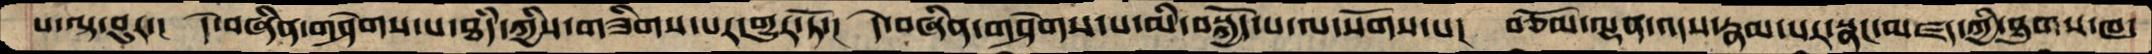པ་ལྟ་བུར་།  དེ་བཞིན་གཤེགས་པ་ཐཾད་ཀྱིས་གཟིགས་པར་གྱུར་ཏོ་།   དེ་བཞིན་གཤེགས་པ་མི་བསྐྱོད་པ་ལ་སོགས་པ་།  བཅོམ་ལྡན་འདས་རྣམ་པར་སྣང་མཛད་ཀྱི་ཐུགས་ཁ་
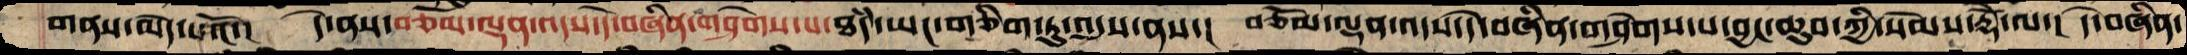གནས་མེད་པའོ་།   དེ་ནས་བཅོམ་ལྡན་འདས་དེ་བཞིན་གཤེགས་པ་ཐཾད་ཡང་གཅིག་ཏུ་འདུས་ནས་།  བཅོམ་ལྡན་འདས་དེ་བཞིན་གཤེགས་པ་བྱང་ཆུབ་ཀྱི་སེམས་རྡོེ་ལ་།  དེ་བཞིན་
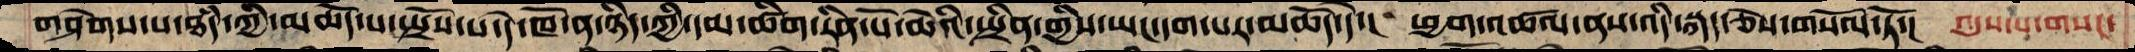གཤེགས་པ་ཐཾད་ཀྱི་མཆོད་པ་སྤྲོས་པ་དེ་ཁོ་ན་ཉིད་ཀྱི་དམ་ཚིག་རིན་པོ་ཆེའི་སྤྲིན་གྱིས་ཡང་དག་པར་མཆོད་དེ་།   ཕྱག་འཚལ་ནས་འདི་སྐད་ཅེས་གསོལ་ཏོ་།  འདུས་པ་གསང་
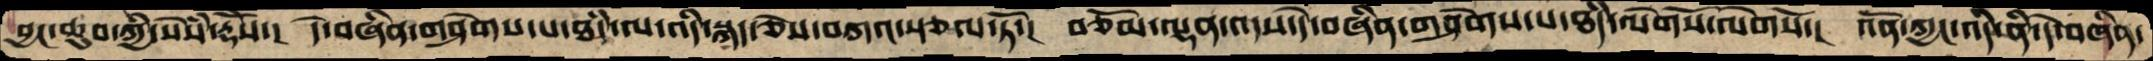བྱང་ཆུབ་ཀྱི་སེཾས་རྡོེས་།  དེ་བཞིན་གཤེགས་པ་ཐཾད་ལ་འདི་སྐད་ཅེས་བཀའ་སྩལ་ཏོ་།  བཅོམ་ལྡན་འདས་དེ་བཞིན་གཤེགས་པ་ཐཾད་ལེགསོ་ལེགསོ་།  འོན་ཀྱང་འདི་ནི་དེ་བཞིན་
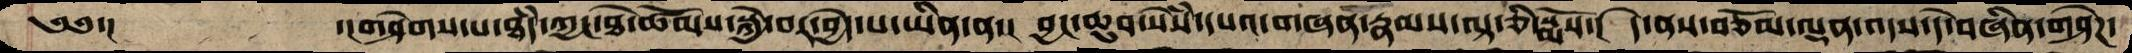༄༅་།   ་།གཤེགས་པ་ཐཾད་ཀྱང་ཐེ་ཚོམས་སྐྱེ་བར་བྱེད་པ་ཡིན་ན་།  བྱང་ཆུབ་སེཾས་དཔའ་གཞན་རྣམས་ལྟ་ཅི་སྨོས་།  དེ་ནས་བཅོམ་ལྡན་འདས་དེ་བཞིན་གཤེཌ་
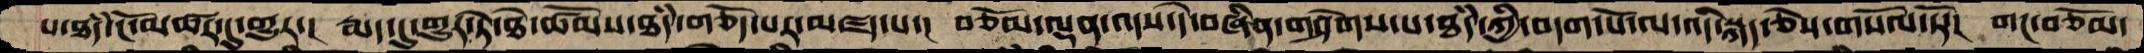པ་ཐཾད་ངོ་མཚར་དུ་གྱུར་།  རྨད་དུ་གྱུར་ཏེ་ཐེ་ཚོམས་ཐཾད་གཅོད་པར་མཛད་པ་།  བཅོམ་ལྡན་འདས་དེ་བཞིན་གཤེགས་པ་ཐཾད་ཀྱི་བདག་པོ་ལ་འདི་སྐད་ཅེས་གསོལ་ཏོ་།   གང་བཅོམ་
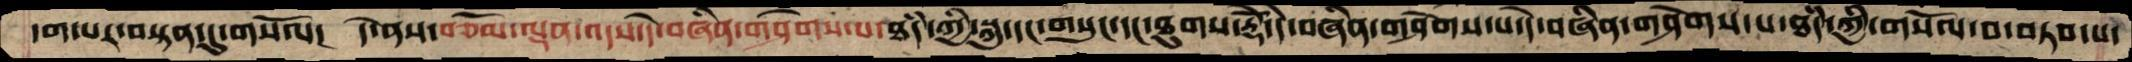དག་པར་བསྟན་དུ་གསོལ་།  དེ་ནས་བཅོམ་ལྡན་འདས་དེ་བཞིན་གཤེགས་པ་ཐཾད་ཀྱི་སྐུ་དང་གསུང་དང་ཐུགས་རྡོེ་དེ་བཞིན་གཤེགས་པ་དེ་བཞིན་གཤེགས་པ་ཐཾད་ཀྱི་གསོལ་བ་བཏབ་པ་
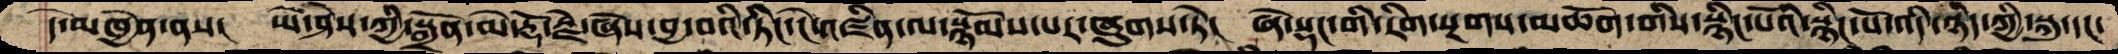དེ་མཁྱེན་ནས།  ཡེ་ཤེས་ཀྱི་སྒྲོན་མེ་རྡོ་རྗེ་ཞེས་བྱ་བའི་ཏིང་ངེ་འཛིན་ལ་སྙོམས་པར་ཞུགས་ཏེ་།  ཞེ་སྡང་གི་ཪིག་སྔགས་མཆོག་གིས་སྙིང་པོའི་སྙིང་པོ་འདི་ཉིད་ཀྱི་སྐུ་དང་
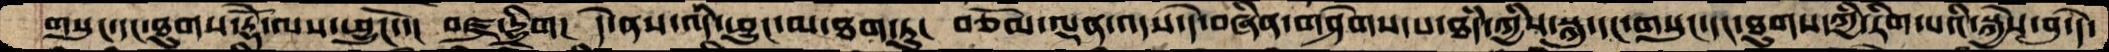གསུང་དང་ཐུགས་རྡོེ་ལས་ཕྱུངོ་་།  བཛྲ་དྷྲིག།  དེ་ནས་འདི་ཕྱུང་མ་ཐག་ཏུ་།  བཅོམ་ལྡན་འདས་དེ་བཞིན་གཤེགས་པ་ཐཾད་ཀྱིས་སྐུ་དང་གསུང་དང་ཐུགས་ཀྱི་རིག་པའི་སྐྱེས་བུ་དེ་
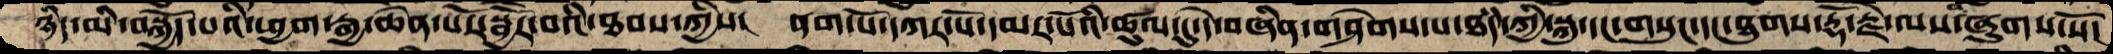ཉིད་མི་བསྐྱོད་པའི་ཕྱག་རྒྱ་ཆེན་པོར་སྦྱོར་བའི་ཐབས་ཀྱིས།  ནག་པོ་དཀར་པོ་དམར་པོའི་ཚུལ་དུ་དེ་བཞིན་གཤེགས་པ་ཐཾད་ཀྱི་སྐུ་དང་གསུང་དང་ཐུགས་རྡོ་རྗེ་ལས་ཞུགས་སོ་
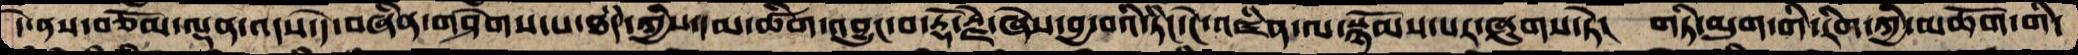དེ་ནས་བཅོམ་ལྡན་འདས་དེ་བཞིན་གཤེགས་པ་ཐཾད་ཀྱིས་དམ་ཚིག་འབྱུང་བ་རྡོ་རྗེ་ཞེས་བྱ་བའི་ཏིང་ངེ་འཛིན་ལ་སྙོམས་པར་ཞུགས་ཏེ།  གཏི་མུག་གི་རིག་ཀྱི་མཆོག་གི་
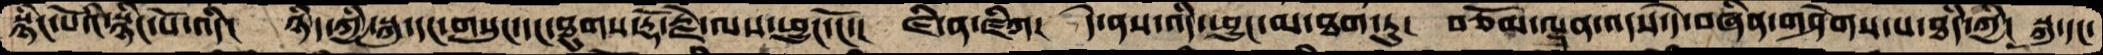སྙིང་པོའི་སྙིང་པོ་འདི་།  ཉིད་ཀྱི་སྐུ་དང་གསུང་དང་ཐུགས་རྡོ་རྗེ་ལས་ཕྱུང་ངོ་།  ཛི་ན་ཛིཀ།  དེ་ནས་འདི་ཕྱུང་མ་ཐག་ཏུ།  བཅོམ་ལྡན་འདས་དེ་བཞིན་གཤེགས་པ་ཐཾད་ཀྱི།  སྐུ་དང་
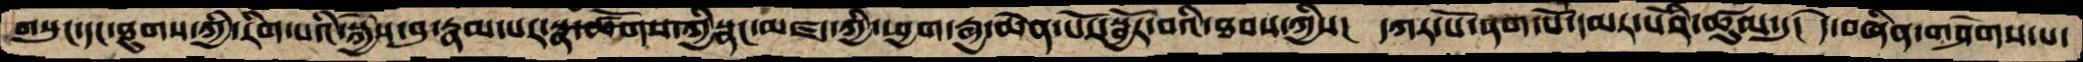གསུང་དང་ཐུགས་ཀྱི་རིག་པའི་སྐྱེས་བུ་རྣམ་པར་སྣ་ཚོགས་ཀྱི་སྣང་མཛད་ཀྱི་ཕྱག་རྒྱ་ཆེན་པོར་སྦྱོར་བའི་ཐབས་ཀྱིས། དཀར་པོ་ནག་པོ་དམར་པོའི་ཚུལ་དུ་།  དེ་བཞིན་གཤེགས་པ་
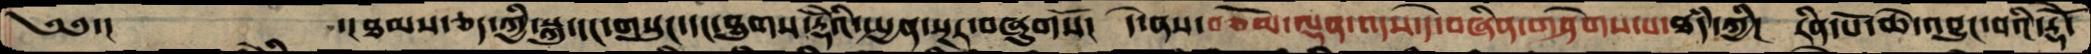༄༅་།          ་།ཐམས་ཅད་ཀྱི་སྐུ་དང་གསུང་དང་ཐུགས་རྡོེའི་སྤྱན་སྔར་བཞུགསོ།  དེ་ནས་བཅོམ་ལྡན་འདས་དེ་བཞིན་གཤེགས་པ་ཐཾད་ཀྱི།  རིན་པོ་ཆེ་འབྱུང་བའི་རྡོེ་
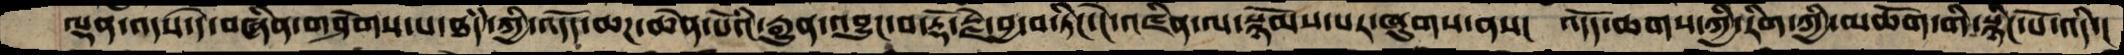ལྡན་འདས་དེ་བཞིན་གཤེགས་པ་ཐཾད་ཀྱི་འདོད་ཆཌ་ཆེན་པོའི་རྒྱུན་འབྱུང་བ་རྡོ་རྗེ་བྱ་བ་ཏིང་ངེ་འཛིན་ལ་སྙོམས་པར་ཞུགས་ནས།  འདོད་ཆགས་ཀྱི་རིག་ཀྱི་མཆོག་གི་སྙིང་པོ་འདི་།
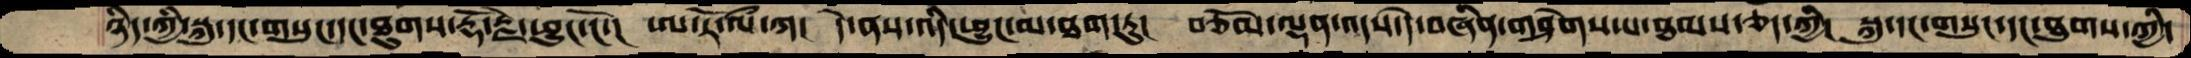ཉིད་ཀྱི་སྐུ་དང་གསུང་དང་ཐུགས་རྡོ་རྗེ་ཕྱུང་ངོ་།  ཨ་རོ་ལྀ་ཀ།  དེ་ནས་འདི་ཕྱུང་མ་ཐག་ཏུ།  བཅོམ་ལྡན་འདས་དེ་བཞིན་གཤེགས་པ་ཐམས་ཅད་ཀྱི།  སྐུ་དང་གསུང་དང་ཐུགས་ཀྱི་
